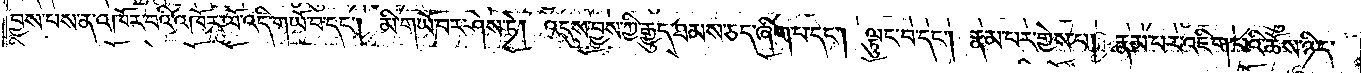བྱས་པས་ན་འཁོར་བའི་འཁོར་ལོ་འདི་གཡོ་བ་དང༌། མི་གཡོ་བར་ཤེས་ཏེ། འདུས་བྱས་ཀྱི་རྒྱུད་ཐམས་ཅད་ཞིག་པ་དང༌། ལྟུང་པ་དང༌། རྣམ་པར་གྱེས་པ། རྣམ་པར་འཇིག་པའི་ཆོས་ཉིད་
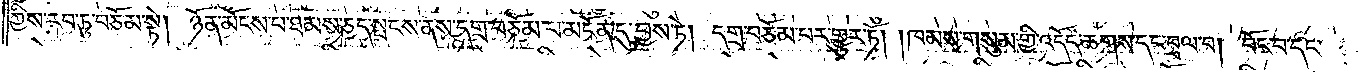ཀྱིས་རབ་ཏུ་བཅོམ་སྟེ། ཉོན་མོངས་པ་ཐམས་ཅད་སྤངས་ནས་དགྲ་བཅོམ་པ་མངོན་དུ་བྱས་ཏེ། དགྲ་བཅོམ་པར་གྱུར་ཏོ། །ཁམས་གསུམ་གྱི་འདོད་ཆགས་དང་བྲལ་བ། བོང་བ་དང་
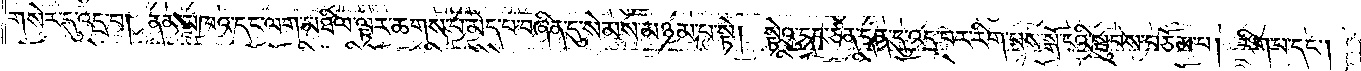གསེར་དུ་འདྲ་བ། ནམ་མཁའ་དང་ལག་མཐིལ་ལྟར་ཆགས་པ་མེད་པ་བཞིན་དུ་སེམས་མཉམ་པ་སྟེ། སྟེའུ་དང་ཙན་དན་དུ་འདྲ་བར་རིག་པས་སྒོ་ངའི་སྦུབས་བཅོམ་པ། རིག་པ་དང༌།
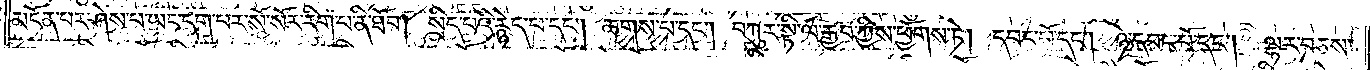མངོན་པར་ཤེས་པ་ཡང་དག་པར་སོ་སོར་རིག་པ་ནི་ཐོབ། སྲིད་པའི་རྙེད་པ་དང༌། ཆགས་པ་དང༌། བཀུར་སྟི་ལ་རྒྱབ་ཀྱིས་ཕྱོགས་ཏེ། དབང་པོ་དང༌། ཉེ་དབང་པོ་དང༌། ལྷར་བཅས་
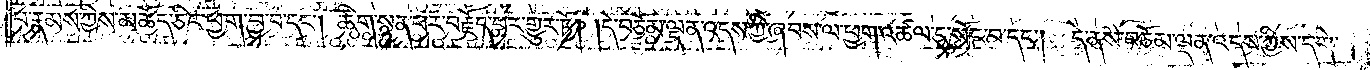པ་རྣམས་ཀྱིས་མཆོད་ཅིང་ཕྱག་བྱ་བ་དང༌། ཚིག་སྙན་པར་བརྗོད་པར་གྱུར་ཏོ། །དེ་བཅོམ་ལྡན་འདས་ཀྱི་ཞབས་ལ་ཕྱག་འཚལ་དུ་སོང་བ་དང༌། དེ་ནས་བཅོམ་ལྡན་འདས་ཀྱིས་དགེ་
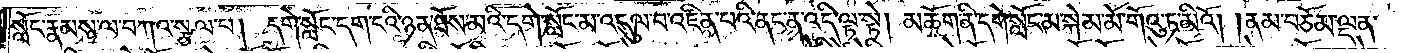སློང་རྣམས་ལ་བཀའ་སྩལ་པ། དགེ་སློང་དག་ངའི་ཉན་ཐོས་མའི་དགེ་སློང་མ་འདུལ་བ་འཛིན་པའི་ནང་ན་འདི་ལྟ་སྟེ། མཆོག་ནི་དགེ་སློང་མ་སྐེམ་མོ་གོའུ་ཏ་མིའོ། །ནམ་བཅོམ་ལྡན་
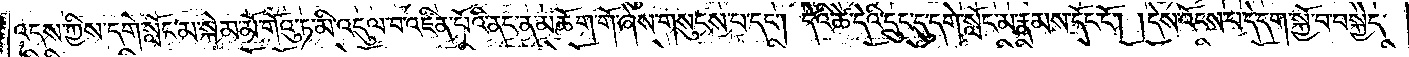འདས་ཀྱིས་དགེ་སློང་མ་སྐེམ་མོ་གོའུ་ཏ་མི་འདུལ་བ་འཛིན་པོའི་ནང་ན་མཆོག་གོ་ཞེས་གསུངས་པ་དང༌། དེའི་ཚེ་དེའི་དྲུང་དུ་དགེ་སློང་མ་རྣམས་དོང་ངོ༌། །དེས་འོངས་པ་དེ་དག་སྐྱོ་བ་བསྐྱེད་
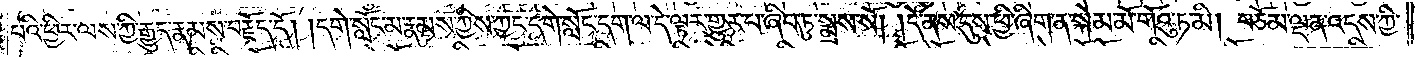པའི་ཕྱིར་ལས་ཀྱི་རྒྱུད་རྣམས་བརྗོད་དོ། །དགེ་སློང་མ་རྣམས་ཀྱིས་ཀྱང་དགེ་སློང་དག་ལ་དེ་ལྟར་གྱུར་པ་ཞིབ་ཏུ་སྨྲས་སོ། །དེ་ནས་དུས་ཕྱི་ཞིག་ན་སྐེམ་མོ་གོའུ་ཏ་མི། བཅོམ་ལྡན་འདས་ཀྱི་
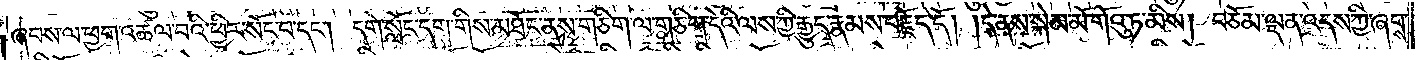ཞབས་ལ་ཕྱག་འཚལ་བའི་ཕྱིར་སོང་བ་དང༌། དགེ་སློང་དག་གིས་མཐོང་ནས་གཅིག་ལ་གཅིག་དེའི་ལས་ཀྱི་རྒྱུད་རྣམས་བརྗོད་དོ། །དེ་ནས་སྐེམ་མོ་གོའུ་ཏ་མིས། བཅོམ་ལྡན་འདས་ཀྱི་ཞབས་
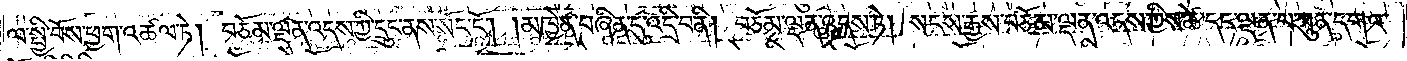ལ་སྤྱི་བོས་ཕྱག་འཚལ་ཏེ། བཅོམ་ལྡན་འདས་ཀྱི་དྲུང་ནས་སོང་ངོ༌། །མཁྱེན་བཞིན་དུ་འདྲི་བ་ནི། བཅོམ་ལྡན་འདས་ཏེ། སངས་རྒྱས་བཅོམ་ལྡན་འདས་ཀྱིས་ཚེ་དང་ལྡན་པ་ཀུན་དགའ་
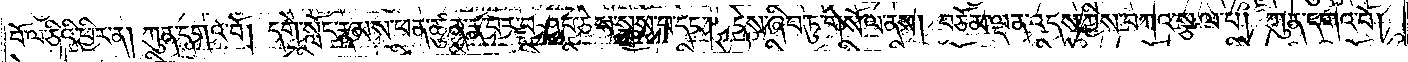བོ་ལ་ཅིའི་ཕྱིར་ན། ཀུན་དགའ་བོ། དགེ་སློང་རྣམས་ཕན་ཚུན་རྣ་བར་བཤུབ་ཅེས་སྨྲས་པ་དང༌། དེས་ཞིབ་ཏུ་གསོལ་ནས། བཅོམ་ལྡན་འདས་ཀྱིས་བཀའ་སྩལ་པ། ཀུན་དགའ་བོ།
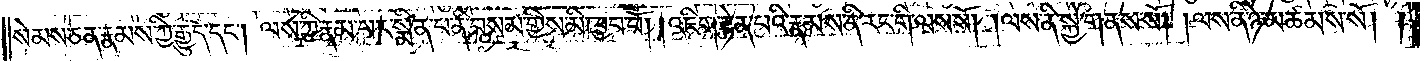སེམས་ཅན་རྣམས་ཀྱི་རྒྱུད་དང༌། ལས་ཀྱི་རྣམ་པར་སྨིན་པ་ནི་བསམ་གྱིས་མི་ཁྱབ་བོ། །འཇིག་རྟེན་པའི་རྣམས་ནི་རང་གི་ལས་སོ། །ལས་ནི་སྐྱེ་གནས་སོ། །ལས་ནི་ཉེ་མཚམས་སོ། །
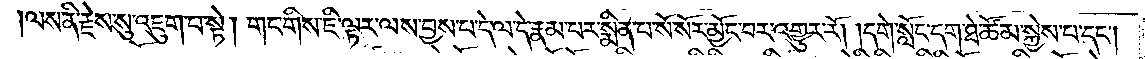ལས་ནི་རྗེས་སུ་འཇུག་པ་སྟེ། གང་གིས་ཇི་ལྟར་ལས་བྱས་པ་དེ་ལ་དེ་རྣམ་པར་སྨིན་པ་སོ་སོར་མྱོང་བར་འགྱུར་རོ། །དགེ་སློང་དག་ཐེ་ཚོམ་སྐྱེས་པ་དང༌།
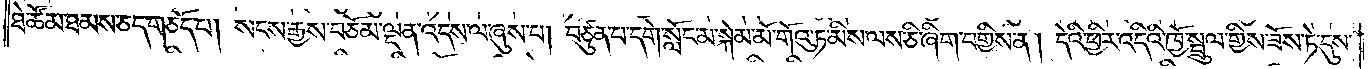ཐེ་ཚོམ་ཐམས་ཅད་གཅོད་པ། སངས་རྒྱས་བཅོམ་ལྡན་འདས་ལ་ཞུས་པ། བཙུན་པ་དགེ་སློང་མ་སྐེམ་མོ་གོའུ་ཏ་མིས་ལས་ཅི་ཞིག་བགྱིས་ན། དེའི་ཕྱིར་འདིའི་ཁྱོ་སྦྲུལ་གྱིས་ཟོས་ཏེ་དུས་
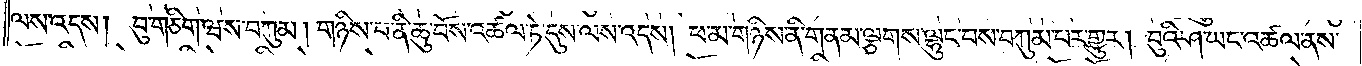ལས་འདས། བུ་གཅིག་ཝས་བཀུམ། གཉིས་པ་ནི་ཆུ་བོས་འཚལ་ཏེ་དུས་ལས་འདས། ཕ་མ་གཉིས་ནི་གནམ་ལྕགས་ལྷུང་བས་བཀུམ་པར་གྱུར། བུའི་ཤ་ཡང་འཚལ་ནས་
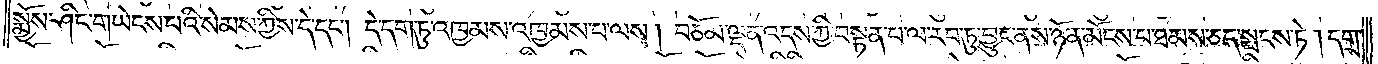སྨྱོས་ཤིང་གཡེངས་པའི་སེམས་ཀྱིས་དེ་དང༌། དེ་དག་ཏུ་འཁྱམས་འཁྱམས་པ་ལས། བཅོམ་ལྡན་འདས་ཀྱི་བསྟན་པ་ལ་རབ་ཏུ་བྱུང་ནས་ཉོན་མོངས་པ་ཐམས་ཅད་སྤངས་ཏེ། དགྲ་
